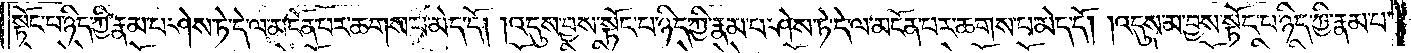སྟོང་པ་ཉིད་ཀྱི་རྣམ་པ་ཤེས་ཏེ་དེ་ལ་མངོན་པར་ཆགས་པ་མེད་དོ། །འདུས་བྱས་སྟོང་པ་ཉིད་ཀྱི་རྣམ་པ་ཤེས་ཏེ་དེ་ལ་མངོན་པར་ཆགས་པ་མེད་དོ། །འདུས་མ་བྱས་སྟོང་པ་ཉིད་ཀྱི་རྣམ་པ་
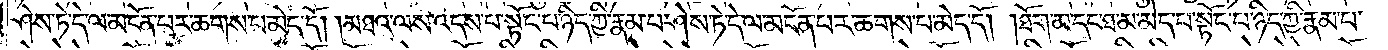ཤེས་ཏེ་དེ་ལ་མངོན་པར་ཆགས་པ་མེད་དོ། །མཐའ་ལས་འདས་པ་སྟོང་པ་ཉིད་ཀྱི་རྣམ་པ་ཤེས་ཏེ་དེ་ལ་མངོན་པར་ཆགས་པ་མེད་དོ། །ཐོག་མ་དང་ཐ་མ་མེད་པ་སྟོང་པ་ཉིད་ཀྱི་རྣམ་པ་
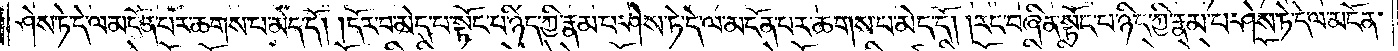ཤེས་ཏེ་དེ་ལ་མངོན་པར་ཆགས་པ་མེད་དོ། །དོར་བ་མེད་པ་སྟོང་པ་ཉིད་ཀྱི་རྣམ་པ་ཤེས་ཏེ་དེ་ལ་མངོན་པར་ཆགས་པ་མེད་དོ། །རང་བཞིན་སྟོང་པ་ཉིད་ཀྱི་རྣམ་པ་ཤེས་ཏེ་དེ་ལ་མངོན་
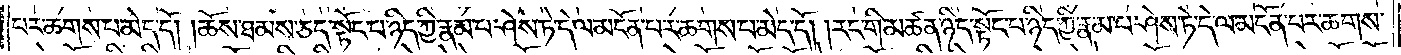པར་ཆགས་པ་མེད་དོ། །ཆོས་ཐམས་ཅད་སྟོང་པ་ཉིད་ཀྱི་རྣམ་པ་ཤེས་ཏེ་དེ་ལ་མངོན་པར་ཆགས་པ་མེད་དོ། །རང་གི་མཚན་ཉིད་སྟོང་པ་ཉིད་ཀྱི་རྣམ་པ་ཤེས་ཏེ་དེ་ལ་མངོན་པར་ཆགས་
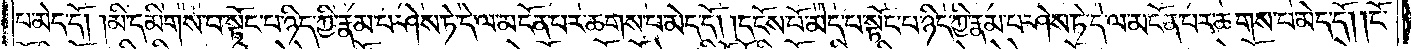པ་མེད་དོ། །མི་དམིགས་པ་སྟོང་པ་ཉིད་ཀྱི་རྣམ་པ་ཤེས་ཏེ་དེ་ལ་མངོན་པར་ཆགས་པ་མེད་དོ། །དངོས་པོ་མེད་པ་སྟོང་པ་ཉིད་ཀྱི་རྣམ་པ་ཤེས་ཏེ་དེ་ལ་མངོན་པར་ཆགས་པ་མེད་དོ། །ངོ་
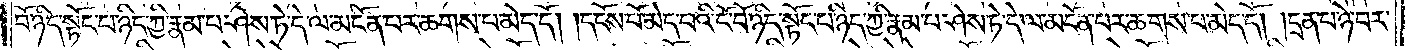བོ་ཉིད་སྟོང་པ་ཉིད་ཀྱི་རྣམ་པ་ཤེས་ཏེ་དེ་ལ་མངོན་པར་ཆགས་པ་མེད་དོ། །དངོས་པོ་མེད་པའི་ངོ་བོ་ཉིད་སྟོང་པ་ཉིད་ཀྱི་རྣམ་པ་ཤེས་ཏེ་དེ་ལ་མངོན་པར་ཆགས་པ་མེད་དོ། །དྲན་པ་ཉེ་བར་
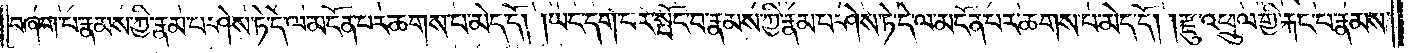བཞག་པ་རྣམས་ཀྱི་རྣམ་པ་ཤེས་ཏེ་དེ་ལ་མངོན་པར་ཆགས་པ་མེད་དོ། །ཡང་དག་པར་སྤོང་བ་རྣམས་ཀྱི་རྣམ་པ་ཤེས་ཏེ་དེ་ལ་མངོན་པར་ཆགས་པ་མེད་དོ། །རྫུ་འཕྲུལ་གྱི་རྐང་པ་རྣམས་
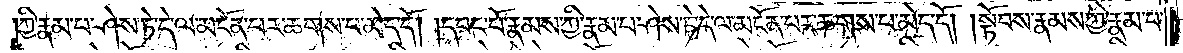ཀྱི་རྣམ་པ་ཤེས་ཏེ་དེ་ལ་མངོན་པར་ཆགས་པ་མེད་དོ། །དབང་པོ་རྣམས་ཀྱི་རྣམ་པ་ཤེས་ཏེ་དེ་ལ་མངོན་པར་ཆགས་པ་མེད་དོ། །སྟོབས་རྣམས་ཀྱི་རྣམ་པ་
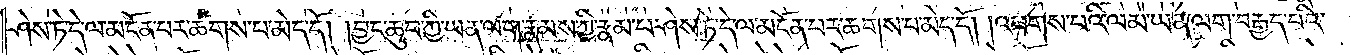ཤེས་ཏེ་དེ་ལ་མངོན་པར་ཆགས་པ་མེད་དོ། །བྱང་ཆུབ་ཀྱི་ཡན་ལག་རྣམས་ཀྱི་རྣམ་པ་ཤེས་ཏེ་དེ་ལ་མངོན་པར་ཆགས་པ་མེད་དོ། །འཕགས་པའི་ལམ་ཡན་ལག་བརྒྱད་པའི་
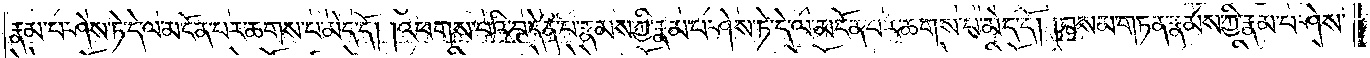རྣམ་པ་ཤེས་ཏེ་དེ་ལ་མངོན་པར་ཆགས་པ་མེད་དོ། །འཕགས་པའི་བདེན་པ་རྣམས་ཀྱི་རྣམ་པ་ཤེས་ཏེ་དེ་ལ་མངོན་པར་ཆགས་པ་མེད་དོ། །བསམ་གཏན་རྣམས་ཀྱི་རྣམ་པ་ཤེས་
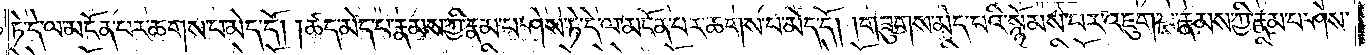ཏེ་དེ་ལ་མངོན་པར་ཆགས་པ་མེད་དོ། །ཚད་མེད་པ་རྣམས་ཀྱི་རྣམ་པ་ཤེས་ཏེ་དེ་ལ་མངོན་པར་ཆགས་པ་མེད་དོ། །གཟུགས་མེད་པའི་སྙོམས་པར་འཇུག་པ་རྣམས་ཀྱི་རྣམ་པ་ཤེས་
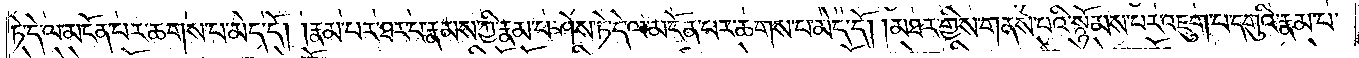ཏེ་དེ་ལ་མངོན་པར་ཆགས་པ་མེད་དོ། །རྣམ་པར་ཐར་པ་རྣམས་ཀྱི་རྣམ་པ་ཤེས་ཏེ་དེ་ལ་མངོན་པར་ཆགས་པ་མེད་དོ། །མཐར་གྱིས་གནས་པའི་སྙོམས་པར་འཇུག་པ་དགུའི་རྣམ་པ་
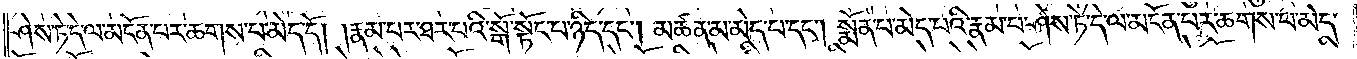ཤེས་ཏེ་དེ་ལ་མངོན་པར་ཆགས་པ་མེད་དོ། །རྣམ་པར་ཐར་པའི་སྒོ་སྟོང་པ་ཉིད་དང༌། མཚན་མ་མེད་པ་དང༌། སྨོན་པ་མེད་པའི་རྣམ་པ་ཤེས་ཏེ་དེ་ལ་མངོན་པར་ཆགས་པ་མེད་
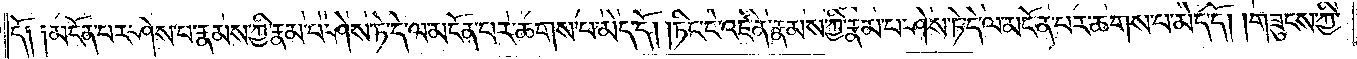དོ༑ ༑མངོན་པར་ཤེས་པ་རྣམས་ཀྱི་རྣམ་པ་ཤེས་ཏེ་དེ་ལ་མངོན་པར་ཆགས་པ་མེད་དོ། །ཏིང་ངེ་འཛིན་རྣམས་ཀྱི་རྣམ་པ་ཤེས་ཏེ་དེ་ལ་མངོན་པར་ཆགས་པ་མེད་དོ། །གཟུངས་ཀྱི་
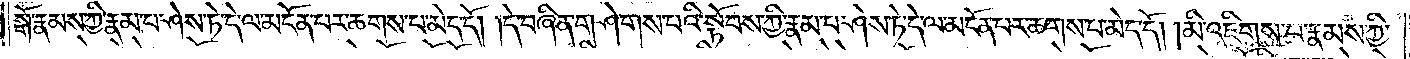སྒོ་རྣམས་ཀྱི་རྣམ་པ་ཤེས་ཏེ་དེ་ལ་མངོན་པར་ཆགས་པ་མེད་དོ། །དེ་བཞིན་གཤེགས་པའི་སྟོབས་རྣམས་ཀྱི་རྣམ་པ་ཤེས་ཏེ་དེ་ལ་མངོན་པར་ཆགས་པ་མེད་དོ། །མི་འཇིགས་པ་རྣམས་ཀྱི་
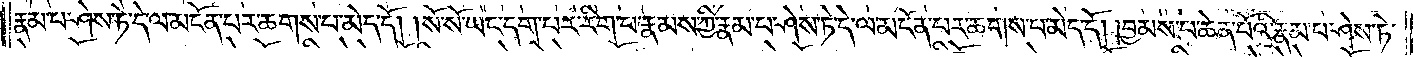རྣམ་པ་ཤེས་ཏེ་དེ་ལ་མངོན་པར་ཆགས་པ་མེད་དོ། །སོ་སོ་ཡང་དག་པར་རིག་པ་རྣམས་ཀྱི་རྣམ་པ་ཤེས་ཏེ་དེ་ལ་མངོན་པར་ཆགས་པ་མེད་དོ། །བྱམས་པ་ཆེན་པོའི་རྣམ་པ་ཤེས་ཏེ་
